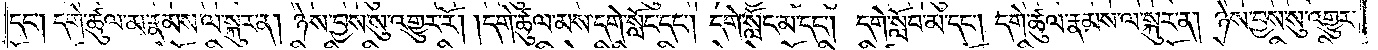དང༌། དགེ་ཚུལ་མ་རྣམས་ལ་སྐུར་ན། ཉེས་བྱས་སུ་འགྱུར་རོ། །དགེ་ཚུལ་མས་དགེ་སློང་དང༌། དགེ་སློང་མ་དང༌། དགེ་སློབ་མ་དང༌། དགེ་ཚུལ་རྣམས་ལ་སྐུར་ན། ཉེས་བྱས་སུ་འགྱུར་
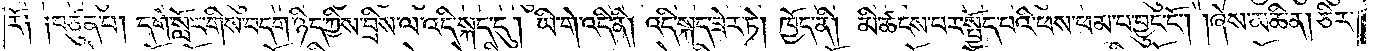རོ༑ ༑བཙུན་པ། དགེ་སློང་གིས་བདག་ཉིད་ཀྱིས་བྲིས་ལ་འདི་སྐད་དུ། ཡི་གེ་འདི་ནི། འདི་སྐད་ཟེར་ཏེ། ཁྱོད་ནི། མི་ཚངས་པར་སྤྱོད་པའི་ཕས་ཕམ་ཕ་བྱུང་ངོ༌། །ཞེས་མཆི་ན། ཅིར་
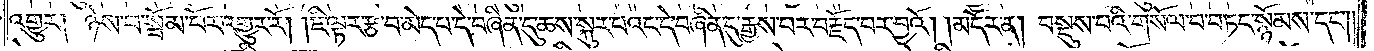འགྱུར། ཉེས་པ་སྦོམ་པོར་འགྱུར་རོ། །ཇི་ལྟར་རྩ་བ་མེད་པ་དེ་བཞིན་དུ་ཆས་སྐུར་པའང་དེ་བཞིན་དུ་རྒྱས་པར་བརྗོད་པར་བྱའོ།    །མདོར་ན། བསྡུས་པའི་གསོལ་བ་བཏང་སྙོམས་དང༌༎
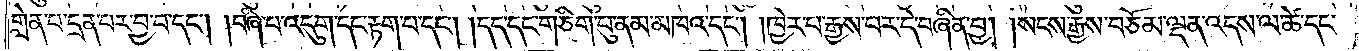གླེན་པ་དྲན་པར་བྱ་བ་དང༌། བཞི་པ་འདུག་དང་རྟག་པ་དང༌། །དད་དང་གཅིག་བུ་ནམ་མཁའ་དང༌། །ཁྱེར་བ་རྒྱས་པར་དེ་བཞིན་བྱ། །སངས་རྒྱས་བཅོམ་ལྡན་འདས་ལ་ཚེ་དང་
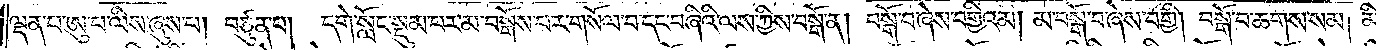ལྡན་པ་ཨུ་པ་ལིས་ཞུས་པ། བཙུན་པ། དགེ་སློང་སྡུམ་པར་མ་བསྒོས་པར་གསོལ་བ་དང་བཞིའི་ལས་ཀྱིས་བསྒོ་ན། བསྒོ་བ་ཞེས་བགྱིའམ། མ་བསྒོ་བ་ཞེས་བགྱི། བསྒོ་བ་ཆགས་སམ། མི་
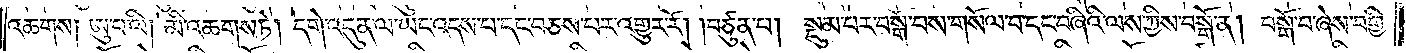འཆགས། ཨུ་པ་ལི། མི་འཆགས་ཏེ། དགེ་འདུན་ལ་ཡང་འདས་པ་དང་བཅས་པར་འགྱུར་རོ། །བཙུན་པ། སྡུམ་པར་བསྒོ་བས་གསོལ་བ་དང་བཞིའི་ལས་ཀྱིས་བསྒོ་ན། བསྒོ་བ་ཞེས་བགྱི་
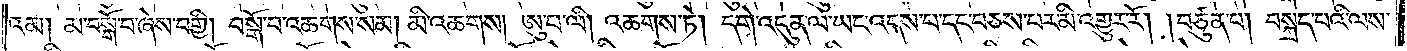འམ། མ་བསྒོ་བ་ཞེས་བགྱི། བསྒོ་བ་འཆགས་སམ། མི་འཆགས། ཨུ་པ་ལི། འཆགས་ཏེ། དགེ་འདུན་ལ་ཡང་འདས་པ་དང་བཅས་པར་མི་འགྱུར་རོ། །བཙུན་པ། བསྐྲད་པའི་ལས་
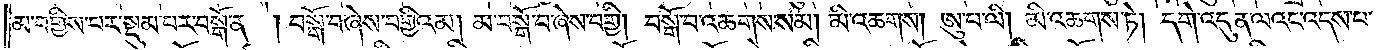མ་བགྱིས་པར་སྡུམ་པར་བསྒོ་ན། བསྒོ་བ་ཞེས་བགྱིའམ། མ་བསྒོ་བ་ཞེས་བགྱི། བསྒོ་བ་འཆགས་སམ། མ་འཆགས། ཨུ་པ་ལི། མི་འཆགས་ཏེ། དགེ་འདུན་ལའང་འདས་པ་
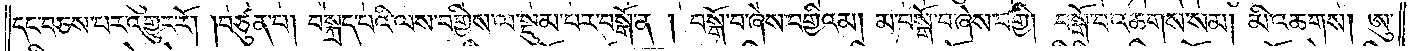དང་བཅས་པར་འགྱུར་རོ། །བཙུན་པ། བསྐྲད་པའི་ལས་བགྱིས་ལ་སྡུམ་པར་བསྒོ་ན། བསྒོ་བ་ཞེས་བགྱིའམ། མ་བསྒོ་བ་ཞེས་བགྱི། བསྒོ་བ་འཆགས་སམ། མི་འཆགས། ཨུ་
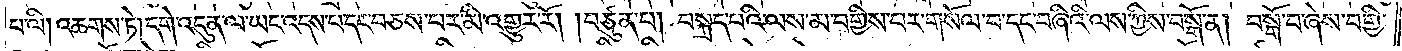པ་ལི། འཆགས་ཏེ། དགེ་འདུན་ལ་ཡང་འདས་པ་དང་བཅས་པར་མི་འགྱུར་རོ། །བཙུན་པ། བསྐྲད་པའི་ལས་མ་བགྱིས་པར་གསོལ་པ་དང་བཞིའི་ལས་ཀྱིས་བསྒོ་ན། བསྒོ་བ་ཞེས་བགྱི་
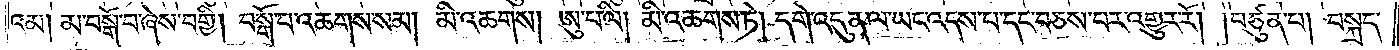འམ། མ་བསྒོ་བ་ཞེས་བགྱི། བསྒོ་བ་འཆགས་སམ། མི་འཆགས། ཨུ་པ་ལི། མི་འཆགས་ཏེ། དགེ་འདུན་ལ་ཡང་འདས་པ་དང་བཅས་པར་འགྱུར་རོ། །བཙུན་པ། བསྐྲད་
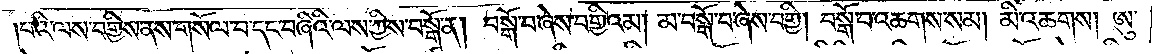།པའི་ལས་བགྱིས་ནས་གསོལ་བ་དང་བཞིའི་ལས་ཀྱིས་བསྒོ་ན། བསྒོ་བ་ཞེས་བགྱིའམ། མ་བསྒོ་བ་ཞེས་བགྱི། བསྒོ་བ་འཆགས་སམ། མི་འཆགས། ཨུ་
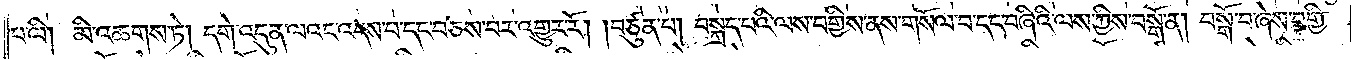པ་ལི། མི་འཆགས་ཏེ། དགེ་འདུན་ལའང་འདས་པ་དང་བཅས་པར་འགྱུར་རོ། །བཙུན་པ། བསྐྲད་པའི་ལས་བགྱིས་ནས་གསོལ་བ་དང་བཞིའི་ལས་ཀྱིས་བསྒོ་ན། བསྒོ་བ་ཞེས་བགྱི་
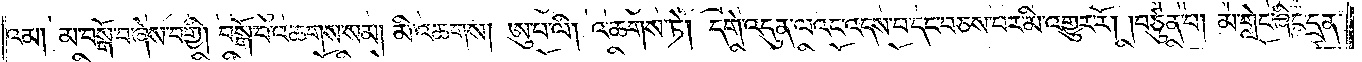འམ། མ་བསྒོ་བ་ཞེས་བགྱི། བསྒོ་བ་འཆགས་སམ། མི་འཆགས། ཨུ་པ་ལི། འཆགས་ཏེ། དགེ་འདུན་ལའང་འདས་པ་དང་བཅས་པར་མི་འགྱུར་རོ། །བཙུན་པ། མ་གླེང་ཞིང་དྲན་
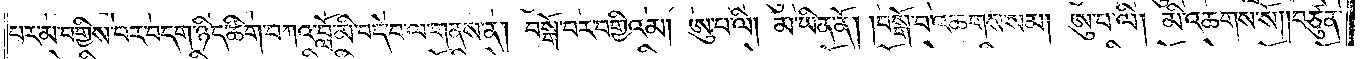པར་མ་བགྱིས་པར་བདག་ཉིད་ཚིག་བཀའ་བློ་མི་བདེ་བ་ལ་གནས་ན། བསྒོ་བར་བགྱིའམ། ཨུ་པ་ལི། མ་ཡིན་ནོ། །བསྒོ་བ་འཆགས་སམ། ཨུ་པ་ལི། མི་འཆགས་སོ། །བཙུན་
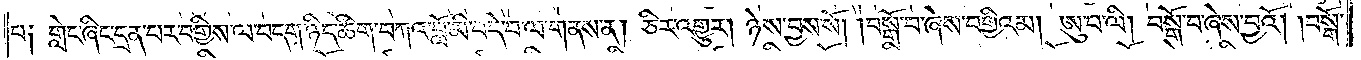པ༑ གླེང་ཞིང་དྲན་པར་བགྱིས་ལ་བདག་ཉིད་ཚིག་བཀའ་བློ་མི་བདེ་བ་ལ་གནས་ན། ཅིར་འགྱུར། ཉེས་བྱས་སོ། །བསྒོ་བ་ཞེས་བགྱིའམ། ཨུ་པ་ལི། བསྒོ་བ་ཞེས་བྱའོ། །བསྒོ་
